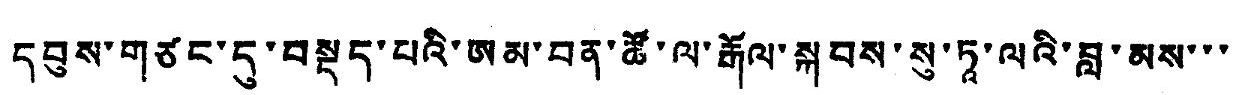དབུས་གཙང་དུ་བསྡད་པའི་ཨམ་བན་ཚོ་ལ་རྒོལ་སྐབས་སུ་ཏཱ་ལའི་བླ་མས་་་
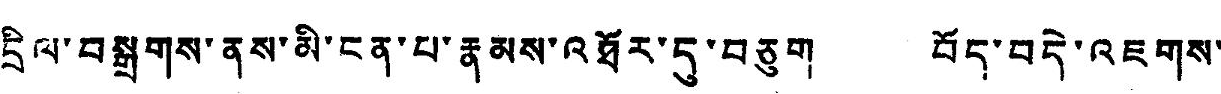དྲིལ་བསྒྲགས་ནས་མི་ངན་པ་རྣམས་འཐོར་དུ་བཅུག བོད་བདེ་འཇགས་
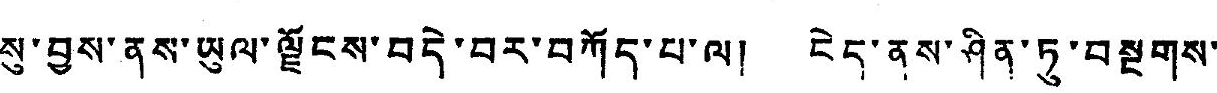སུ་བྱས་ནས་ཡུལ་ལྗོངས་བདེ་བར་བཀོད་པ་ལ། ངེད་ནས་ཤིན་ཏུ་བསྔགས་
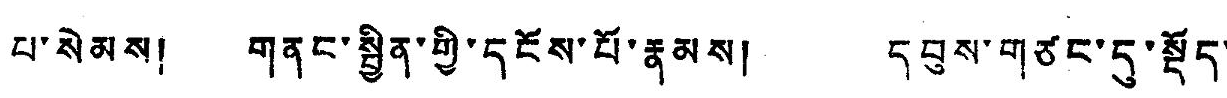པ་སེམས། གནང་སྦྱིན་གྱི་དངོས་པོ་རྣམས། དབུས་གཙང་དུ་སྡོད་
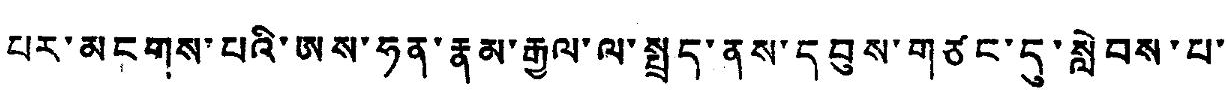པར་མངགས་པའི་ཨས་ཧན་རྣམ་རྒྱལ་ལ་སྤྲད་ནས་དབུས་གཙང་དུ་སླེབས་པ་
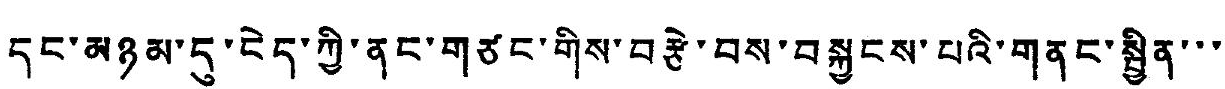དང་མཉམ་དུ་ངེད་ཀྱི་ནང་གཙང་གིས་བརྩེ་བས་བསྐྱངས་པའི་གནང་སྦྱིན་་་
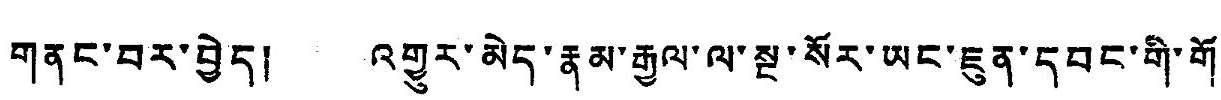གནང་བར་བྱེད། འགྱུར་མེད་རྣམ་རྒྱལ་ལ་སྔ་སོར་ཡང་ཇུན་དབང་གི་གོ་
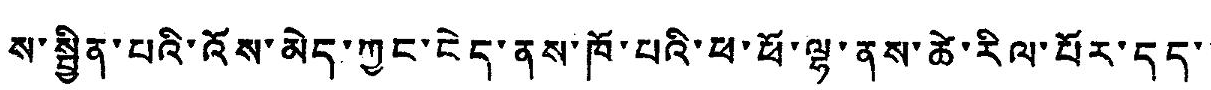ས་སྦྱིན་པའི་འོས་མེད་ཀྱང་ངེད་ནས་ཁོ་པའི་ཕ་ཕོ་ལྷ་ནས་ཚེ་རིལ་པོར་དད་་
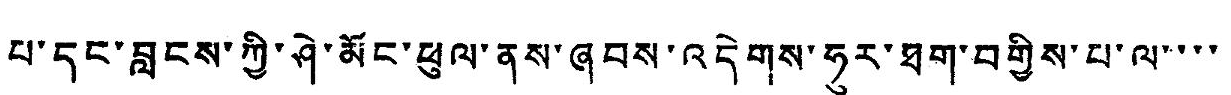པ་དང་བླངས་ཀྱི་ཤེ་མོང་ཕུལ་ནས་ཞབས་འདེབས་ཧུར་ཐག་བགྱིས་པ་ལ་་་་
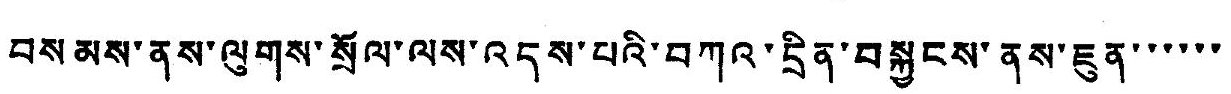བསམས་ནས་ལུགས་སྲོལ་ལས་འདས་པའི་བཀའ་དྲིན་བསྐྱངས་ནས་ཇུན་་་་་་
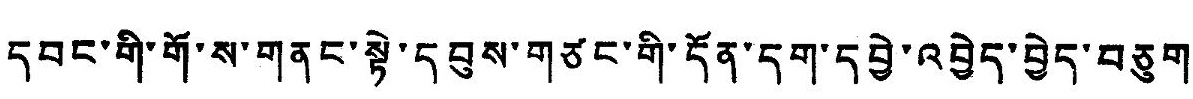དབང་གི་གོ་ས་གནང་སྟེ་དབུས་གཙང་གི་དོན་དག་དབྱེ་འབྱེད་བྱེད་བཅུག
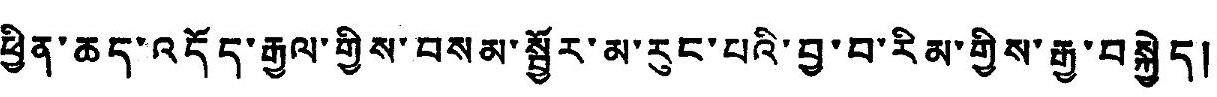ཕྱིན་ཆད་འདོད་རྒྱལ་གྱིས་བསམ་སྦྱོར་མ་རུང་པའི་བྱ་བ་རིམ་གྱིས་རྒྱ་བསྐྱེད།
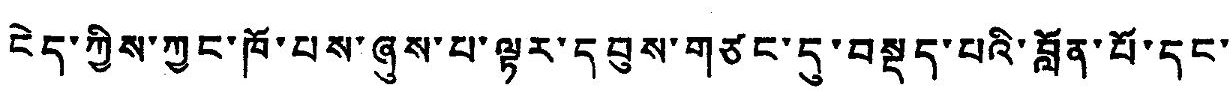ངེད་ཀྱིས་ཀྱང་ཁོ་པས་ཞུས་པ་ལྟར་དབུས་གཙང་དུ་བསྡད་པའི་བློན་པོ་དང་
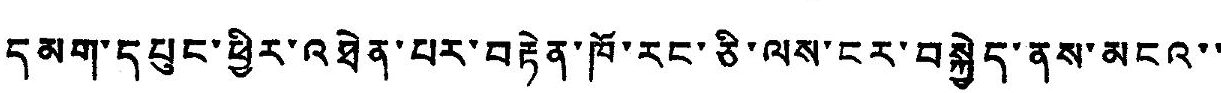དམག་དཔུང་ཕྱིར་འཐེན་པར་བརྟེན་ཁོ་རང་ཅི་ལས་ངར་བསྐྱེད་ནས་མངའ་་
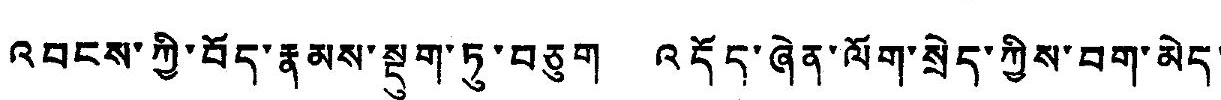འབངས་ཀྱི་བོད་རྣམས་སྡུག་ཏུ་བཅུག འདོད་ཞེན་ལོག་སྲེད་ཀྱིས་བག་མེད་
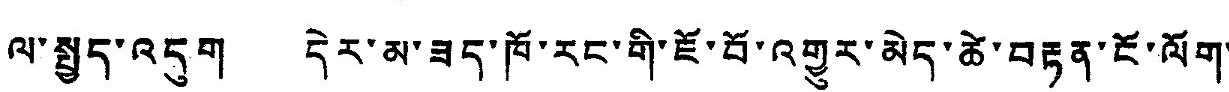ལ་སྤྱད་འདུག དེར་མ་ཟད་ཁོ་རང་གི་ཇོ་བོ་འགྱུར་མེད་ཚེ་བརྟན་ངོ་ལོག་
